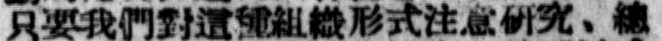只要我們對這種組織形式注意研究、總
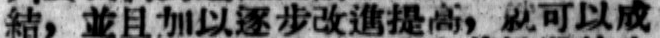結，並且加以逐步改善提高，就可以成
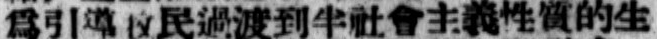爲引導牧民過渡到半社會主義性質的生
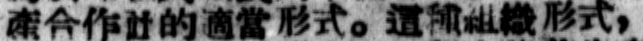產合作社的適當形式。這種組織形式，
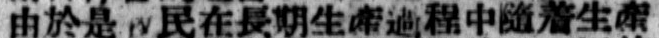由於是牧民在長期生產過程中隨着生產
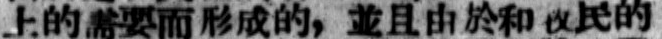上的需要而形成的，並且由於和牧民的
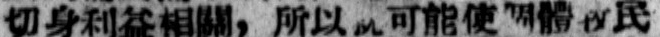切身利益相關，所以就可能使個體牧民
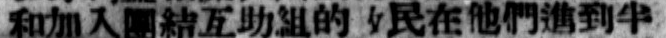和加入團結互助組的牧民在他們進到半
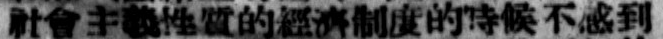社會主義性質的經濟制度的時候不感到
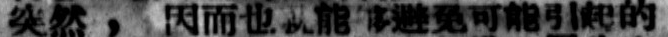突然 ， 因而也就能夠避免可能引起的
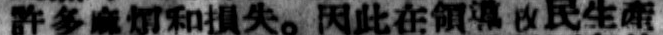許多麻煩和損失。因此在領導牧民生產
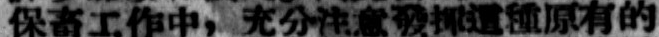保畜工作中，充分注意發揮這種原有的
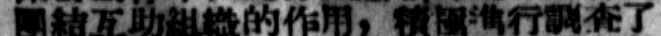團結互助組織的作用，積極進行調查了
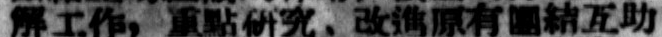解工作，重點研究，改進原有團結互助
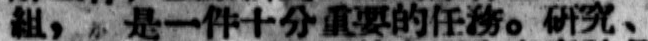組，就是一件十分重要的任務。研究、
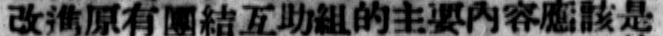改進原有團結互助組的主要內容應該是
